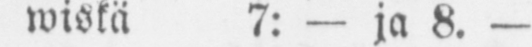wiskä 7: — ja 8.—
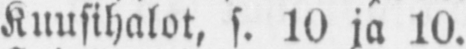Kuusihalot, s. 10 ja 10. 20
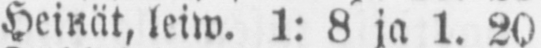Heinät, leiw. 1: 8 ja 1.20
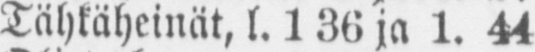Tähkäheinät, l. 136 ja 1. 44
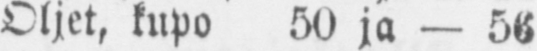Oljet, kupo 50 ja — 56
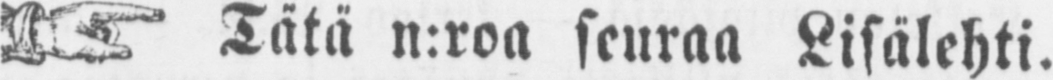Tätä n:roa seuraa Lisälehti.
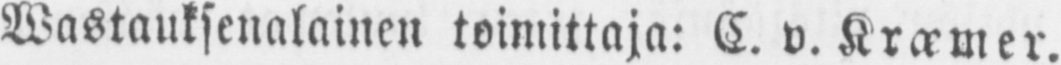Wastauksenalainen toimittaja: C. v. Kræmer.
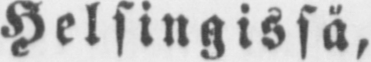Helsingissä,
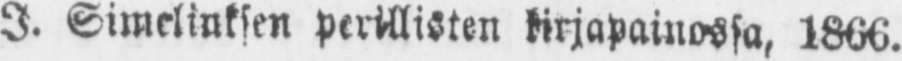I. Simeliuksen perillisten kirjapainossa, 1866.
